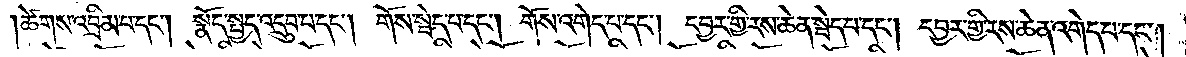།ཚེགས་འབྲིམ་པ་དང༌། སྣོད་སྤྱད་འདྲུབ་པ་དང༌། གོས་སྦེད་པ་དང༌། གེས་འགེད་པ་དང༌། དབྱར་གྱི་རས་ཆེན་སྦེད་པ་དང༌། དབྱར་གྱི་རས་ཆེན་འགེད་པ་དང༌།
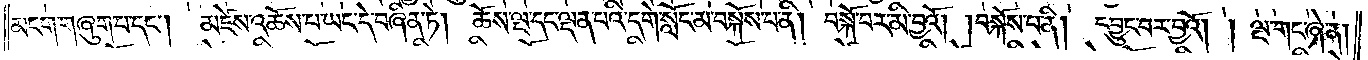མངག་གཞུག་པ་དང༌། མཛེས་འཆོས་པ་ཡང་དེ་བཞིན་ཏེ། ཆོས་ལྔ་དང་ལྡན་པའི་དགེ་སློང་མ་བསྐོས་པ་ནི། བསྐོ་བར་མི་བྱའོ། །བསྐོས་པ་ནི། དབྱུང་བར་བྱའོ། །ལྔ་གང་ཞེ་ན།
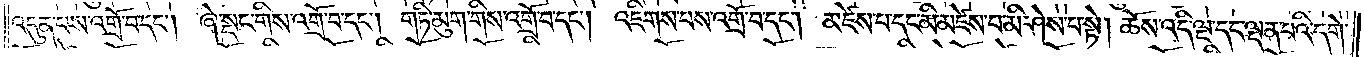འདུན་པས་འགྲོ་བ་དང༌། ཞེ་སྡང་གིས་འགྲོ་བ་དང༌། གཏི་མུག་གིས་འགྲོ་བ་དང༌། འཇིགས་པས་འགྲོ་བ་དང༌། མཛེས་པ་དང་མི་མཛེས་པ་མི་ཤེས་པ་སྟེ། ཆོས་འདི་ལྔ་དང་ལྡན་པའི་དགེ་
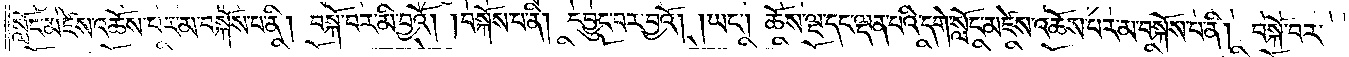སློང་མཛེས་འཆོས་པར་མ་བསྐོས་པ་ནི། བསྐོ་བར་མི་བྱའོ། །བསྐོས་པ་ནི། དབྱུང་བར་བྱའོ། །ཡང༌། ཆོས་ལྔ་དང་ལྡན་པའི་དགེ་སློང་མཛེས་འཆོས་པར་མ་བསྐོས་པ་ནི། བསྐོ་བར་
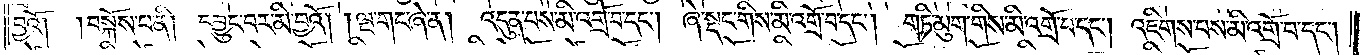བྱའོ། །བསྐོས་པ་ནི། དབྱུང་བར་མི་བྱའོ། །ལྔ་གང་ཞེ་ན། འདུན་པས་མི་འགྲོ་བ་དང༌། ཞེ་སྡང་གིས་མི་འགྲོ་བ་དང༌། གཏི་མུག་གིས་མི་འགྲོ་བ་དང༌། འཇིགས་པས་མི་འགྲོ་བ་དང༌།
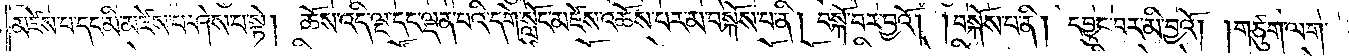མཛེས་པ་དང་མི་མཛེས་པ་ཤེས་པ་སྟེ། ཆོས་འདི་ལྔ་དང་ལྡན་པའི་དགེ་སློང་མཛེས་འཆོས་པར་མ་བསྐོས་པ་ནི། བསྐོ་བར་བྱའོ། །བསྐོས་པ་ནི། དབྱུང་བར་མི་བྱའོ། །གཙུག་ལག་
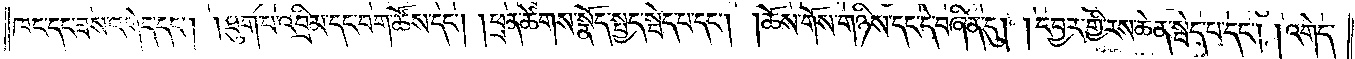ཁང་དང་ཟས་འགེད་དང༌། །ཐུག་པ་འབྲིམ་དང་བག་ཚོས་དང༌། །ཕྲན་ཚེགས་སྣོད་སྤྱད་སྦེད་པ་དང༌། །ཆོས་གོས་གཉིས་དང་དེ་བཞིན་དུ། །དབྱར་གྱི་རས་ཆེན་སྦེད་པ་དང༌། །འགེད་
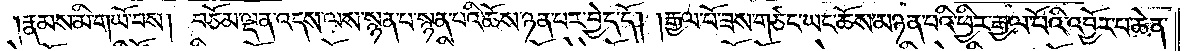།རྣམས་མི་གཡོ་བས། བཅོམ་ལྡན་འདས་ལས་སྙན་པ་སྙན་པའི་ཆོས་ཉན་པར་བྱེད་དོ། །རྒྱལ་པོ་ཟས་གཙང་ཡང་ཆོས་མཉན་པའི་ཕྱིར་རྒྱལ་པོའི་འབྱོར་པ་ཆེན་
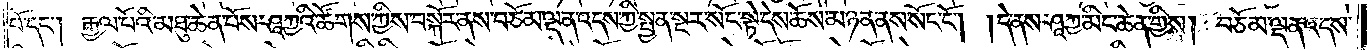པོ་དང༌། རྒྱལ་པོའི་མཐུ་ཆེན་པོས་ཤཱཀྱའི་ཚོགས་ཀྱིས་བསྐོར་ནས་བཅོམ་ལྡན་འདས་ཀྱི་སྤྱན་སྔར་སོང་སྟེ་དེས་ཆོས་མཉན་ནས་སོང་ངོ༌། །དེ་ནས་ཤཱཀྱ་མིང་ཆེན་གྱིས། བཅོམ་ལྡན་འདས་
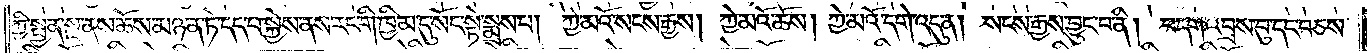ཀྱི་སྤྱན་སྔ་ནས་ཆོས་མཉན་ཏེ་དད་པ་སྐྱེས་ནས་རང་གི་ཁྱིམ་དུ་སོང་སྟེ་སྨྲས་པ། ཀྱེ་མའོ་སངས་རྒྱས། ཀྱེ་མའོ་ཆོས། ཀྱེ་མའོ་དགེ་འདུན། སངས་རྒྱས་བྱུང་བ་ནི། བདག་འབྲས་བུ་དང་བཅས་
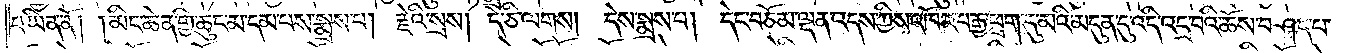པ་ཡིན་ནོ། །མིང་ཆེན་གྱི་ཆུང་མ་དམ་པས་སྨྲས་པ། རྗེའི་སྲས། དེ་ཅི་ལགས། དེས་སྨྲས་པ། དེང་བཅོམ་ལྡན་འདས་ཀྱིས་འཁོར་བརྒྱ་ཕྲག་དུ་མའི་མདུན་དུ་འདི་འདྲ་བའི་ཆོས་བཤད་པ་
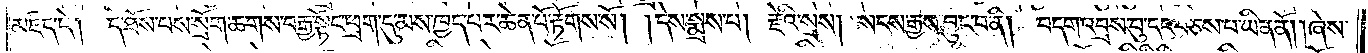མཛད་དེ། དེ་ཐོས་པས་སྲོག་ཆགས་བརྒྱ་སྟོང་ཕྲག་དུ་མས་ཁྱད་པར་ཆེན་པོ་རྟོགས་སོ། །དེས་སྨྲས་པ། རྗེའི་སྲས། སངས་རྒྱས་བྱུང་བ་ནི། བདག་འབྲས་བུ་དང་བཅས་པ་ཡིན་ནོ། །ཞེས་
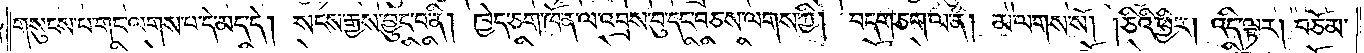གསུངས་པ་གང་ལགས་པ་དེ་མད་དེ། སངས་རྒྱས་བྱུང་བ་ནི། ཁྱེད་ཅག་ཁོ་ན་ལ་འབྲས་བུ་དང་བཅས་ལགས་ཀྱི། བདག་ཅག་ལ་ནི། མ་ལགས་སོ། །ཅིའི་ཕྱིར། འདི་ལྟར། བཅོམ་
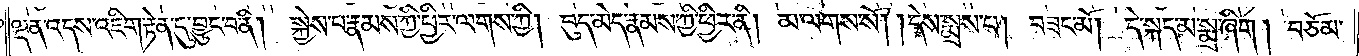ལྡན་འདས་འཇིག་རྟེན་དུ་བྱུང་བ་ནི། སྐྱེས་པ་རྣམས་ཀྱི་ཕྱིར་ལགས་ཀྱི། བུད་མེད་རྣམས་ཀྱི་ཕྱིར་ནི། མ་ལགས་སོ། །དེས་སྨྲས་པ། བཟང་མོ། དེ་སྐད་མ་སྨྲ་ཞིག། བཅོམ་
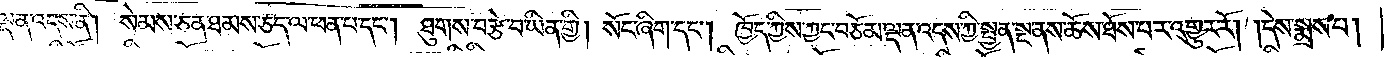ལྡན་འདས་ནི། སེམས་ཅན་ཐམས་ཅད་ལ་ཕན་པ་དང༌། ཐུགས་བརྩེ་བ་ཡིན་གྱི། སོང་ཞིག་དང༌། ཁྱོད་ཀྱིས་ཀྱང་བཅོམ་ལྡན་འདས་ཀྱི་སྤྱན་སྔ་ནས་ཆོས་ཐོས་པར་འགྱུར་རོ། །དེས་སྨྲས་པ།
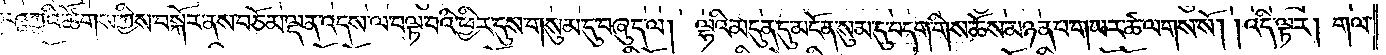ལྷ་ཤཱཀྱའི་ཚོགས་ཀྱིས་བསྐོར་ནས་བཅོམ་ལྡན་འདས་ལ་བལྟ་བའི་ཕྱིར་དུས་གསུམ་དུ་བཞུད་ལ། ལྷའི་མདུན་དུ་མངོན་སུམ་དུ་བདག་གིས་ཆོས་མཉན་པ་གཡར་ཚ་ལགས་སོ། །འདི་ལྟར། གལ་
